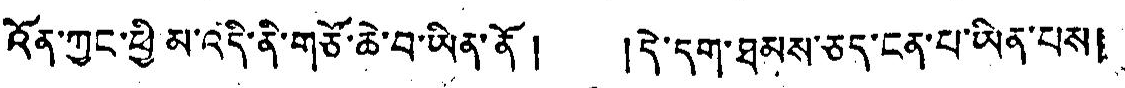འོན་ཀྱང་ཕྱི་མ་འདི་ནི་གཙོ་ཆེ་བ་ཡིན་ནོ ། །དེ་དག་ཐམས་ཅད་ངན་པ་ཡིན་པས།
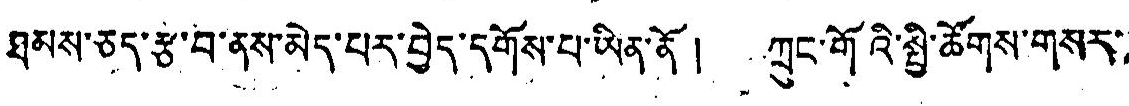ཐམས་ཅད་རྩ་བ་ནས་མེད་པར་བྱེད་དགོས་པ་ཡིན་ནོ ། ཀྲུང་གོའི་སྤྱི་ཚོགས་གསར་
